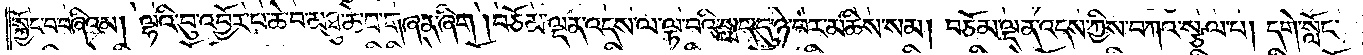སྐྱོང་བ་བཞིའམ། ལྷའི་བུ་འབྱོར་བ་ཆེ་བ་མཐུ་ཆེ་བ་གཞན་ཞིག །བཅོམ་ལྡན་འདས་ལ་ལྟ་བའི་སླད་དུ་ཉེ་བར་མཆིས་སམ། བཅོམ་ལྡན་འདས་ཀྱིས་བཀའ་སྩལ་པ། དགེ་སློང་
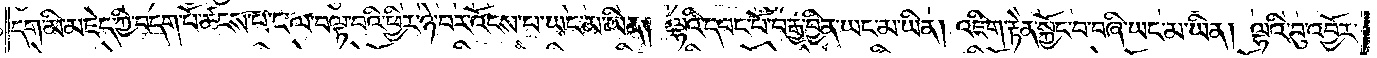དག་མི་མཇེད་ཀྱི་བདག་པོ་ཚངས་པ་ང་ལ་བལྟ་བའི་ཕྱིར་ཉེ་བར་འོངས་པ་ཡང་མ་ཡིན། ལྷའི་དབང་པོ་བརྒྱ་བྱིན་ཡང་མ་ཡིན། འཇིག་རྟེན་སྐྱོང་བ་བཞི་ཡང་མ་ཡིན། ལྷའི་བུ་འབྱོར་
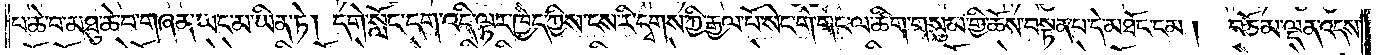པ་ཆེ་བ་མཐུ་ཆེ་བ་གཞན་ཡང་མ་ཡིན་ཏེ། དགེ་སློང་དག་འདི་ལྟར་ཁྱེད་ཀྱིས་ངས་རི་དྭགས་ཀྱི་རྒྱལ་པོ་སེང་གེ་གང་ལ་ཚིག་གསུམ་གྱི་ཆོས་བསྟན་པ་དེ་མཐོང་ངམ། བཅོམ་ལྡན་འདས་
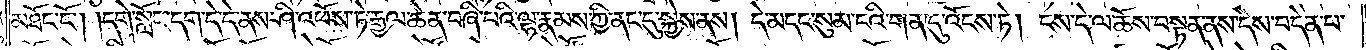མཐོང་ངོ༌། །དགེ་སློང་དག་དེ་དེ་ནས་ཤི་འཕོས་ཏེ་རྒྱལ་ཆེན་བཞི་བའི་ལྷ་རྣམས་ཀྱི་ནང་དུ་སྐྱེས་ནས། དེ་མདང་སུམ་ངའི་གན་དུ་འོངས་ཏེ། ངས་དེ་ལ་ཆོས་བསྟན་ནས་དེས་བདེན་པ་
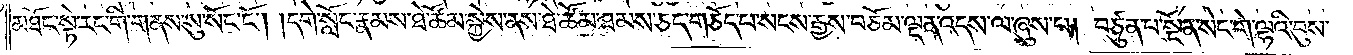མཐོང་སྟེ་རང་གི་གནས་སུ་སོང་ངོ༌། །དགེ་སློང་རྣམས་ཐེ་ཚོམ་སྐྱེས་ནས་ཐེ་ཚོམ་ཐམས་ཅད་གཅོད་པ་སངས་རྒྱས་བཅོམ་ལྡན་འདས་ལ་ཞུས་པ། བཙུན་པ་སྔོན་སེང་གེ་ལྷའི་བུས་
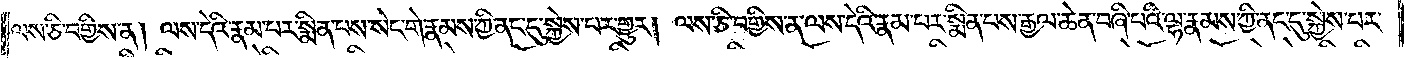ལས་ཅི་བགྱིས་ན། ལས་དེའི་རྣམ་པར་སྨིན་པས་སེང་གེ་རྣམས་ཀྱི་ནང་དུ་སྐྱེས་པར་གྱུར། ལས་ཅི་བགྱིས་ན་ལས་དེའི་རྣམ་པར་སྨིན་པས་རྒྱལ་ཆེན་བཞི་པའི་ལྷ་རྣམས་ཀྱི་ནང་དུ་སྐྱེས་པར་
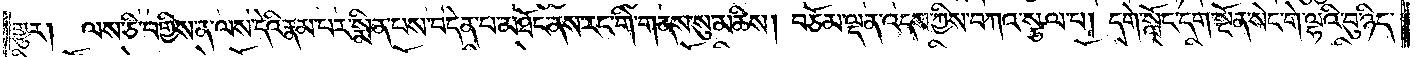གྱུར། ལས་ཅི་བགྱིས་ན་ལས་དེའི་རྣམ་པར་སྨིན་པས་བདེན་པ་མཐོང་ནས་རང་གི་གནས་སུ་མཆིས། བཅོམ་ལྡན་འདས་ཀྱིས་བཀའ་སྩལ་པ། དགེ་སློང་དག་སྔོན་སེང་གེ་ལྷའི་བུ་ཉིད་
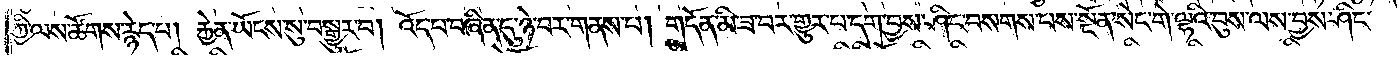ཀྱི་ལས་ཚོགས་རྙེད་པ། རྐྱེན་ཡོངས་སུ་བསྒྱུར་བ། འོད་པ་བཞིན་དུ་ཉེ་བར་གནས་པ། གདོན་མི་ཟ་བར་གྱུར་པ་དག་བྱས་ཤིང་བསགས་པས་སྔོན་སེང་གེ་ལྷའི་བུས་ལས་བྱས་ཤིང་
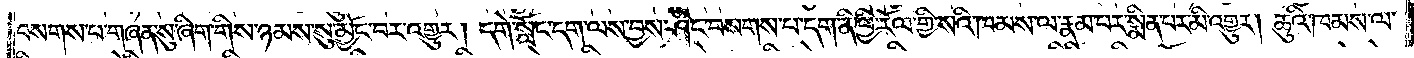བསགས་པ་གཞན་སུ་ཞིག་གིས་ཉམས་སུ་མྱོང་བར་འགྱུར། དགེ་སློང་དག་ལས་བྱས་ཤིང་བསགས་པ་དག་ནི་ཕྱི་རོལ་གྱི་སའི་ཁམས་ལ་རྣམ་པར་སྨིན་པར་མི་འགྱུར། ཆུའི་ཁམས་ལ་
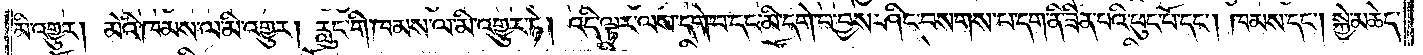མི་འགྱུར། མེའི་ཁམས་ལ་མི་འགྱུར། རླུང་གི་ཁམས་ལ་མི་འགྱུར་ཏེ། འདི་ལྟར་ལས་དགེ་བ་དང་མི་དགེ་བ་བྱས་ཤིང་བསགས་པ་དག་ནི་ཟིན་པའི་ཕུང་པོ་དང༌། ཁམས་དང༌། སྐྱེ་མཆེད་
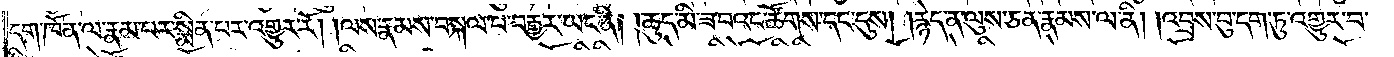དག་ཁོ་ན་ལ་རྣམ་པར་སྨིན་པར་འགྱུར་རོ། །ལས་རྣམས་བསྐལ་བ་བརྒྱར་ཡང་ནི། །ཆུད་མི་ཟ་བའང་ཚོགས་དང་དུས། །རྙེད་ན་ལུས་ཅན་རྣམས་ལ་ནི། །འབྲས་བུ་དག་ཏུ་འགྱུར་བ་
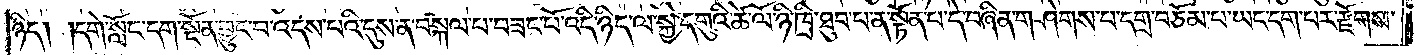ཉིད། །དགེ་སློང་དག་སྔོན་བྱུང་བ་འདས་པའི་དུས་ན་བསྐལ་བ་བཟང་པོ་འདི་ཉིད་ལ་སྐྱེ་དགུའི་ཚེ་ལོ་ཉི་ཁྲི་ཐུབ་པ་ན་སྟོན་པ་དེ་བཞིན་གཤེགས་པ་དགྲ་བཅོམ་པ་ཡང་དག་པར་རྫོགས་
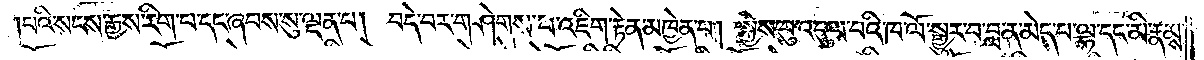པའི་སངས་རྒྱས་རིག་པ་དང་ཞབས་སུ་ལྡན་པ། བདེ་བར་གཤེགས་པ་འཇིག་རྟེན་མཁྱེན་པ། སྐྱེས་བུ་འདུལ་བའི་ཁ་ལོ་སྒྱུར་བ་བླ་ན་མེད་པ་ལྷ་དང་མི་རྣམས་
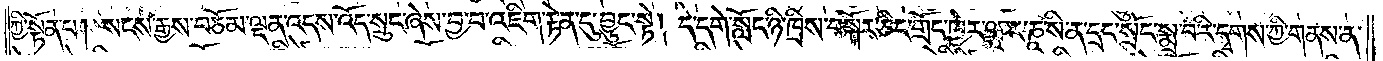ཀྱི་སྟོན་པ། སངས་རྒྱས་བཅོམ་ལྡན་འདས་འོད་སྲུང་ཞེས་བྱ་བ་འཇིག་རྟེན་དུ་བྱུང་སྟེ། དེ་དགེ་སློང་ཉི་ཁྲིས་བསྐོར་ཅིང་གྲོང་ཁྱེར་ཝཱ་ར་ཎཱ་སི་ན་དྲང་སྲོང་སྨྲ་བ་རི་དྭགས་ཀྱི་གནས་ན་
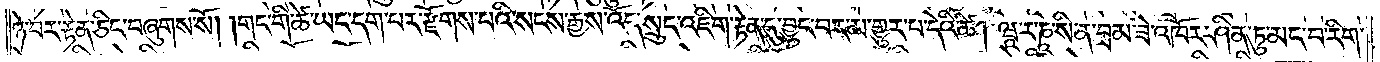ཉེ་བར་རྟེན་ཅིང་བཞུགས་སོ། །གང་གི་ཚེ་ཡང་དག་པར་རྫོགས་པའི་སངས་རྒྱས་འོད་སྲུང་འཇིག་རྟེན་དུ་བྱུང་བར་མ་གྱུར་པ་དེའི་ཚེ། ཝཱ་ར་ཎཱ་སི་ན་བྲམ་ཟེ་འཁོར་ཤིན་ཏུ་མང་བ་རིག་
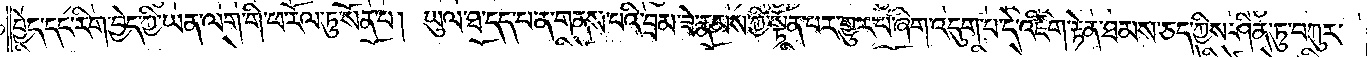བྱེད་དང་རིག་བྱེད་ཀྱི་ཡན་ལག་གི་ཕ་རོལ་ཏུ་སོན་པ། ཡུལ་ཐ་དད་པ་ན་གནས་པའི་བྲམ་ཟེ་རྣམས་ཀྱི་སྟོན་པར་གྱུར་པ་ཞིག་འདུག་པ་དེ་འཇིག་རྟེན་ཐམས་ཅད་ཀྱིས་ཤིན་ཏུ་བཀུར་
